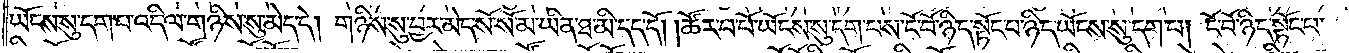ཡོངས་སུ་དག་པ་འདི་ལ་གཉིས་སུ་མེད་དེ། གཉིས་སུ་བྱར་མེད་སོ་སོ་མ་ཡིན་ཐ་མི་དད་དོ། །ཚོར་བ་པོ་ཡོངས་སུ་དག་པས་ངོ་བོ་ཉིད་སྟོང་པ་ཉིད་ཡོངས་སུ་དག་པ། ངོ་བོ་ཉིད་སྟོང་པ་
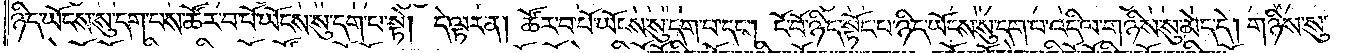ཉིད་ཡོངས་སུ་དག་པས་ཚོར་བ་པོ་ཡོངས་སུ་དག་པ་སྟེ། དེ་ལྟར་ན། ཚོར་བ་པོ་ཡོངས་སུ་དག་པ་དང༌། ངོ་བོ་ཉིད་སྟོང་པ་ཉིད་ཡོངས་སུ་དག་པ་འདི་ལ་གཉིས་སུ་མེད་དེ། གཉིས་སུ་
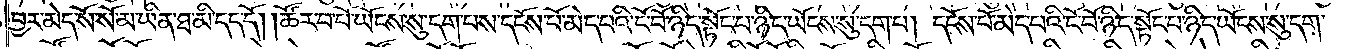བྱར་མེད་སོ་སོ་མ་ཡིན་ཐ་མི་དད་དོ། །ཚོར་བ་པོ་ཡོངས་སུ་དག་པས་དངོས་པོ་མེད་པའི་ངོ་བོ་ཉིད་སྟོང་པ་ཉིད་ཡོངས་སུ་དག་པ། དངོས་པོ་མེད་པའི་ངོ་བོ་ཉིད་སྟོང་པ་ཉིད་ཡོངས་སུ་དག་
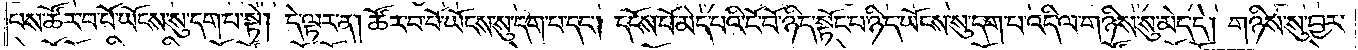པས་ཚོར་བ་པོ་ཡོངས་སུ་དག་པ་སྟེ། དེ་ལྟར་ན། ཚོར་བ་པོ་ཡོངས་སུ་དག་པ་དང༌། དངོས་པོ་མེད་པའི་ངོ་བོ་ཉིད་སྟོང་པ་ཉིད་ཡོངས་སུ་དག་པ་འདི་ལ་གཉིས་སུ་མེད་དེ། གཉིས་སུ་བྱར་
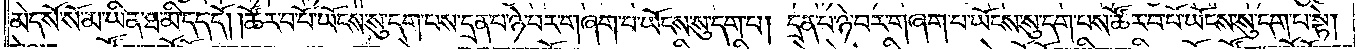མེད་སོ་སོ་མ་ཡིན་ཐ་མི་དད་དོ། །ཚོར་བ་པོ་ཡོངས་སུ་དག་པས་དྲན་པ་ཉེ་བར་གཞག་པ་ཡོངས་སུ་དག་པ། དྲན་པ་ཉེ་བར་གཞག་པ་ཡོངས་སུ་དག་པས་ཚོར་བ་པོ་ཡོངས་སུ་དག་པ་སྟེ།
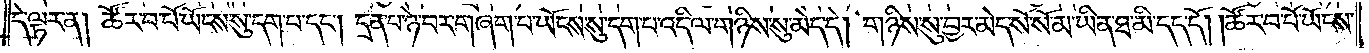དེ་ལྟར་ན། ཚོར་བ་པོ་ཡོངས་སུ་དག་པ་དང༌། དྲན་པ་ཉེ་བར་གཞག་པ་ཡོངས་སུ་དག་པ་འདི་ལ་གཉིས་སུ་མེད་དེ། གཉིས་སུ་བྱར་མེད་སོ་སོ་མ་ཡིན་ཐ་མི་དད་དོ། །ཚོར་བ་པོ་ཡོངས་
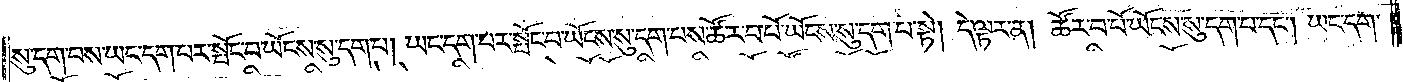སུ་དག་པས་ཡང་དག་པར་སྤོང་བ་ཡོངས་སུ་དག་པ། ཡང་དག་པར་སྤོང་བ་ཡོངས་སུ་དག་པས་ཚོར་བ་པོ་ཡོངས་སུ་དག་པ་སྟེ། དེ་ལྟར་ན། ཚོར་བ་པོ་ཡོངས་སུ་དག་པ་དང༌། ཡང་དག་
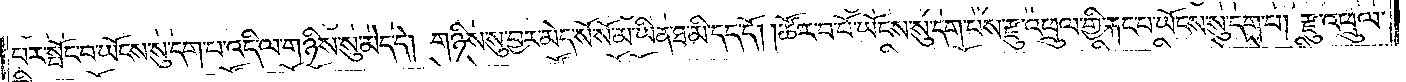པར་སྤོང་པ་ཡོངས་སུ་དག་པ་འདི་ལ་གཉིས་སུ་མེད་དེ། གཉིས་སུ་བྱར་མེད་སོ་སོ་མ་ཡིན་ཐ་མི་དད་དོ། །ཚོར་བ་པོ་ཡོངས་སུ་དག་པས་རྫུ་འཕྲུལ་གྱི་རྐང་པ་ཡོངས་སུ་དག་པ། རྫུ་འཕྲུལ་
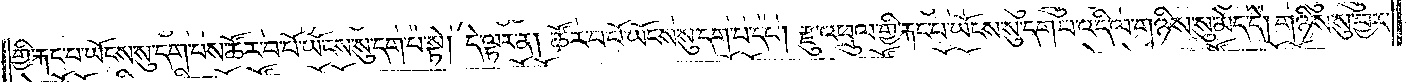གྱི་རྐང་པ་ཡོངས་སུ་དག་པས་ཚོར་བ་པོ་ཡོངས་སུ་དག་པ་སྟེ། དེ་ལྟར་ན། ཚོར་བ་པོ་ཡོངས་སུ་དག་པ་དང༌། རྫུ་འཕྲུལ་གྱི་རྐང་པ་ཡོངས་སུ་དག་པ་འདི་ལ་གཉིས་སུ་མེད་དེ། གཉིས་སུ་བྱར་
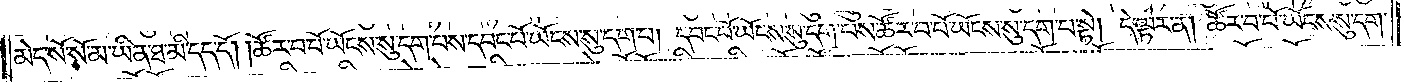མེད་སོ་སོ་མ་ཡིན་ཐ་མི་དད་དོ། །ཚོར་བ་པོ་ཡོངས་སུ་དག་པས་དབང་པོ་ཡོངས་སུ་དག་པ། དབང་པོ་ཡོངས་སུ་དག་པས་ཚོར་བ་པོ་ཡོངས་སུ་དག་པ་སྟེ། དེ་ལྟར་ན། ཚོར་བ་པོ་ཡོངས་སུ་དག་
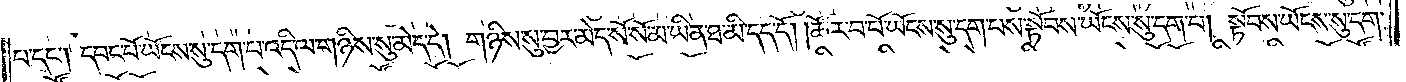པ་དང༌། དབང་པོ་ཡོངས་སུ་དག་པ་འདི་ལ་གཉིས་སུ་མེད་དེ། གཉིས་སུ་བྱར་མེད་སོ་སོ་མ་ཡིན་ཐ་མི་དད་དོ། །ཚོར་བ་པོ་ཡོངས་སུ་དག་པས་སྟོབས་ཡོངས་སུ་དག་པ། སྟོབས་ཡོངས་སུ་དག་
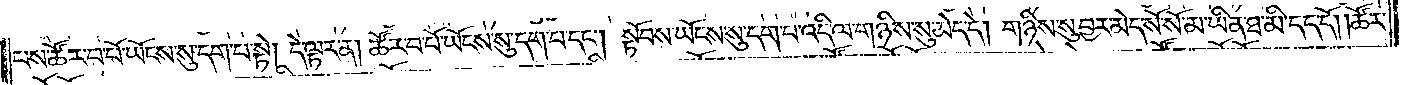པས་ཚོར་བ་པོ་ཡོངས་སུ་དག་པ་སྟེ། དེ་ལྟར་ན། ཚོར་བ་པོ་ཡོངས་སུ་དག་པ་དང༌། སྟོབས་ཡོངས་སུ་དག་པ་འདི་ལ་གཉིས་སུ་མེད་དེ། གཉིས་སུ་བྱར་མེད་སོ་སོ་མ་ཡིན་ཐ་མི་དད་དོ། །ཚོར་
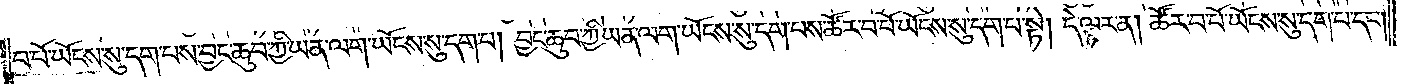བ་པོ་ཡོངས་སུ་དག་པས་བྱང་ཆུབ་ཀྱི་ཡན་ལག་ཡོངས་སུ་དག་པ། བྱང་ཆུབ་ཀྱི་ཡན་ལག་ཡོངས་སུ་དག་པས་ཚོར་བ་པོ་ཡོངས་སུ་དག་པ་སྟེ། དེ་ལྟར་ན། ཚོར་བ་པོ་ཡོངས་སུ་དག་པ་དང༌།
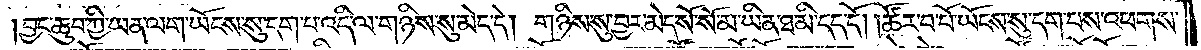བྱང་ཆུབ་ཀྱི་ཡན་ལག་ཡོངས་སུ་དག་པ་འདི་ལ་གཉིས་སུ་མེད་དེ། གཉིས་སུ་བྱར་མེད་སོ་སོ་མ་ཡིན་ཐ་མི་དད་དོ། །ཚོར་བ་པོ་ཡོངས་སུ་དག་པས་འཕགས་
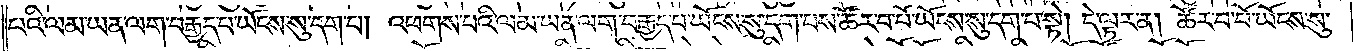པའི་ལམ་ཡན་ལག་བརྒྱད་པ་ཡོངས་སུ་དག་པ། འཕགས་པའི་ལམ་ཡན་ལག་བརྒྱད་པ་ཡོངས་སུ་དག་པས་ཚོར་བ་པོ་ཡོངས་སུ་དག་པ་སྟེ། དེ་ལྟར་ན། ཚོར་བ་པོ་ཡོངས་སུ་
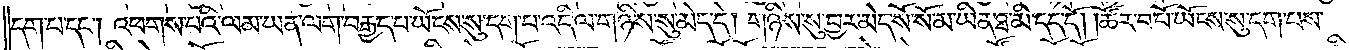དག་པ་དང༌། འཕགས་པའི་ལམ་ཡན་ལག་བརྒྱད་པ་ཡོངས་སུ་དག་པ་འདི་ལ་གཉིས་སུ་མེད་དེ། གཉིས་སུ་བྱར་མེད་སོ་སོ་མ་ཡིན་ཐ་མི་དད་དོ། །ཚོར་བ་པོ་ཡོངས་སུ་དག་པས་
